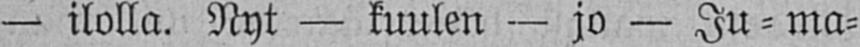— ilolla. Nyt — kuulen — jo — Ju- ma-
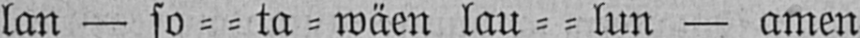lan — so - - ta - wäen lau - - lun — amen
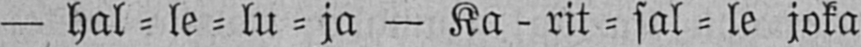— hal - le - lu - ja — Ka - rit - sal - le joka
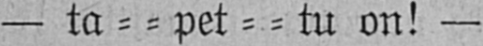— ta - - pet - - tu on! —
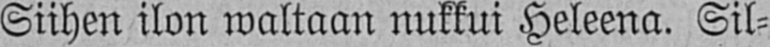Siihen ilon waltaan nukkui Heleena. Sil-
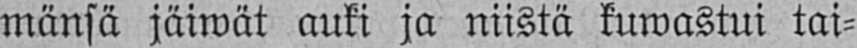mänsä jäiwät auki ja niistä kuwastui tai-
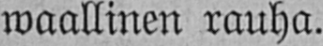waallinen rauha.
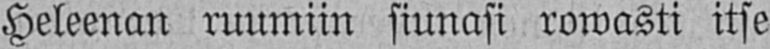Heleenan ruumiin siunasi rowasti itse
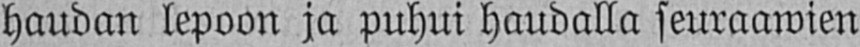haudan lepoon ja puhui haudalla seuraawien
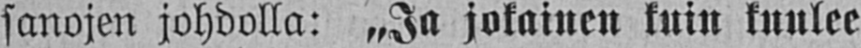sanojen johdolla: „Ja jokainen kuin kuulee
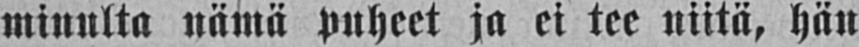minulta nämä puheet ja ei tee niitä, hän
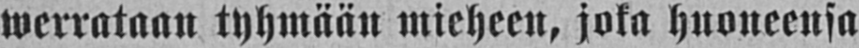werrataan tyhmään mieheen, joka huoneensa
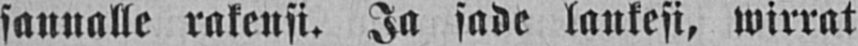sannalle rakensi. Ja sade lankesi, wirrat
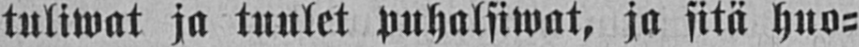tuliwat ja tuulet puhalsiwat, ja sitä huo-
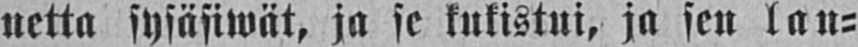netta sysäsiwät, ja se kukistui, ja sen lan-
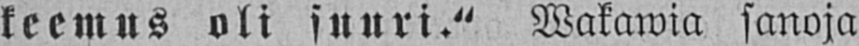keemus oli suuri." Wakawia sanoja
